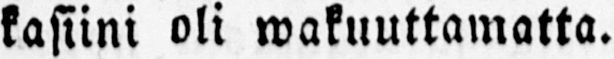kasiini oli wakuuttamatta.
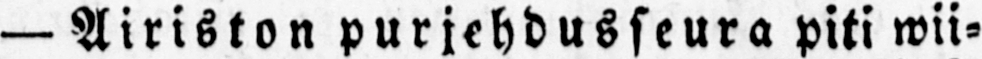— Airiston purjehdusseura piti wii-
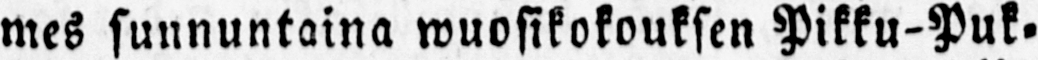mes sunnuntaina wuosikokouksen Pikku-Puk-
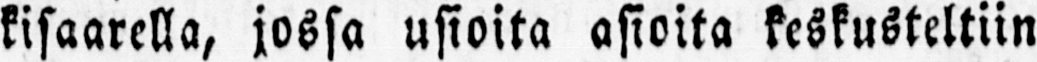kisaarella, jossa usioita asioita keskusteltiin
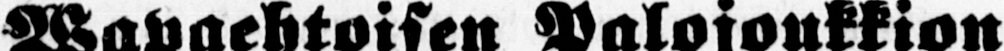Wapaehtoisen Palojoukkion
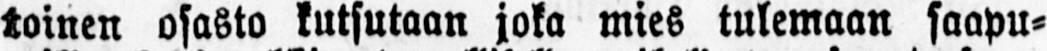toinen osasto kutsutaan joka mies tulemaan saapu-
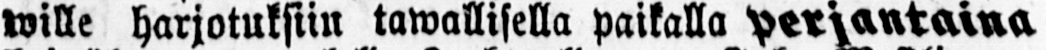wille harjotuksiin tawallisella paikalla perjantaina
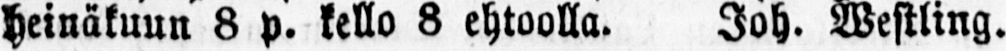heinäkuun 8 p. kello 8 ehtoolla. Joh. Westling.
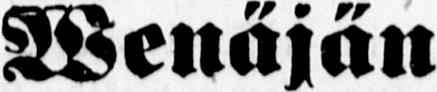Wenäjän
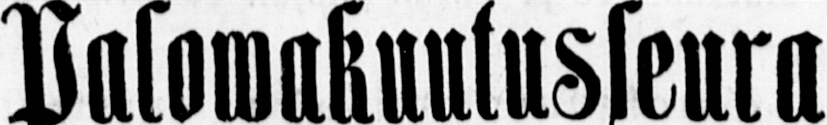Palowakuutusseura
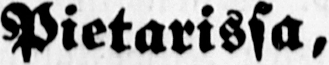Pietarissa,
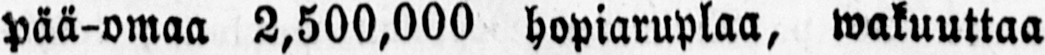pää-omaa 2,500,000 hopiaruplaa, wakuuttaa
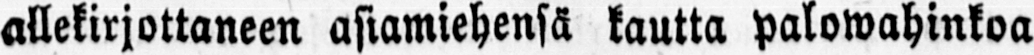allekirjottaneen asiamiehensä kautta palowahinkoa
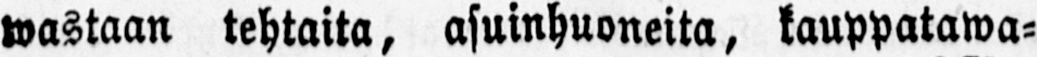wastaan tehtaita, asuinhuoneita, kauppatawa-
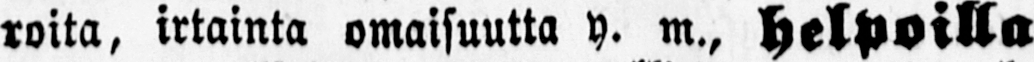roita, irtainta omaisuutta y. m., helpoilla
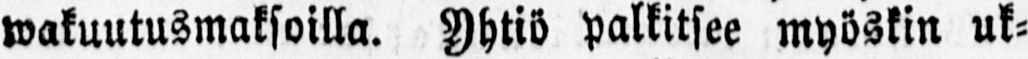wakuutusmaksoilla. Yhtiö palkitsee myöskin uk-
